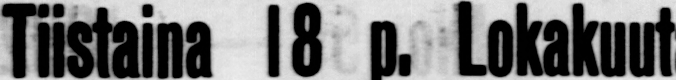Tiistaina 18 p. Lokakuuta
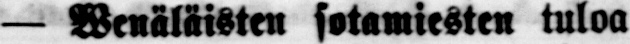— Wenäläisten sotamiesten tuloa
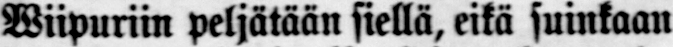Wiipuriin peljätään siellä, eikä suinkaan
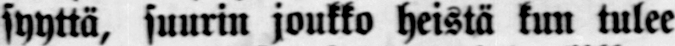syyttä, suurin joukko heistä kun tulee
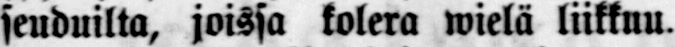seuduilta, joissa kolera wielä liikkuu.
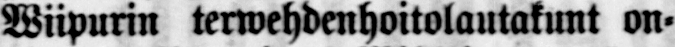Wiipurin terwehdenhoitolautakunt on-
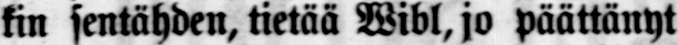kin sentähden, tietää Wibl, jo päättänyt
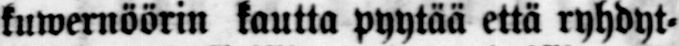kuwernöörin kautta pyytää että ryhdyt-
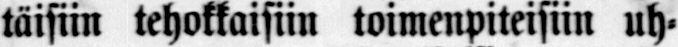täisiin tehokkaisiin toimenpiteisiin uh-
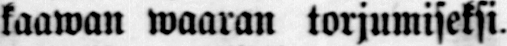kaawan waaran torjumiseksi.
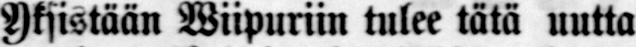Yksistään Wiipuriin tulee tätä uutta
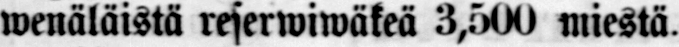wenäläistä reserwiwäkeä 3,500 miestä.
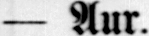— Aur.
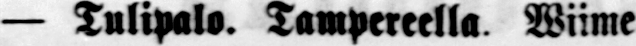— Tulipalo. Tampereella Wiime
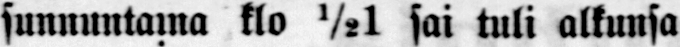sunnuntama klo ½1 sai tuli alkunsa
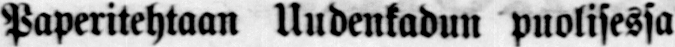Paperitehtaan Undenkadun puolisessa
